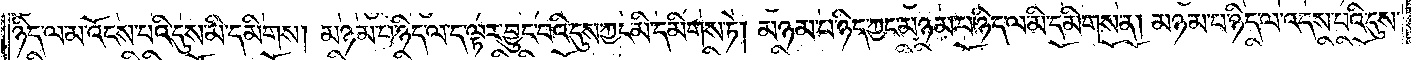ཉིད་ལ་མ་འོངས་པའི་དུས་མི་དམིགས། མཉམ་པ་ཉིད་ལ་ད་ལྟར་བྱུང་བའི་དུས་ཀྱང་མི་དམིགས་ཏེ། མཉམ་པ་ཉིད་ཀྱང་མཉམ་པ་ཉིད་ལ་མི་དམིགས་ན། མཉམ་པ་ཉིད་ལ་འདས་པའི་དུས་
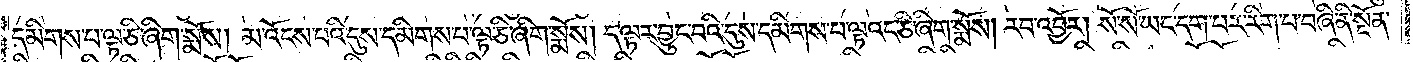དམིགས་པ་ལྟ་ཅི་ཞིག་སྨོས། མ་འོངས་པའི་དུས་དམིགས་པ་ལྟ་ཅི་ཞིག་སྨོས། ད་ལྟར་བྱུང་བའི་དུས་དམིགས་པ་ལྟའང་ཅི་ཞིག་སྨོས། རབ་འབྱོར། སོ་སོ་ཡང་དག་པར་རིག་པ་བཞི་ནི་སྔོན་
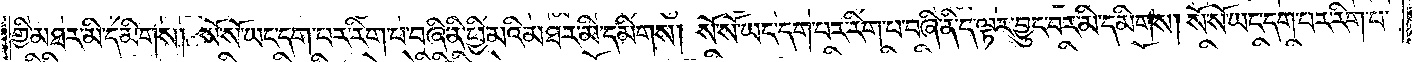གྱི་མཐར་མི་དམིགས། སོ་སོ་ཡང་དག་པར་རིག་པ་བཞི་ནི་ཕྱི་མའི་མཐར་མི་དམིགས། སོ་སོ་ཡང་དག་པར་རིག་པ་བཞི་ནི་ད་ལྟར་བྱུང་བར་མི་དམིགས། སོ་སོ་ཡང་དག་པར་རིག་པ་
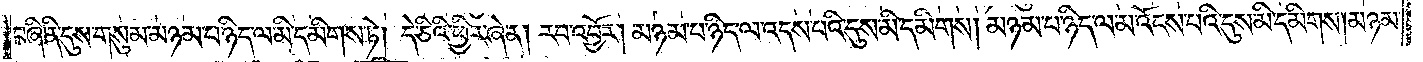བཞི་ནི་དུས་གསུམ་མཉམ་པ་ཉིད་ལ་མི་དམིགས་ཏེ། དེ་ཅིའི་ཕྱིར་ཞེ་ན། རབ་འབྱོར། མཉམ་པ་ཉིད་ལ་འདས་པའི་དུས་མི་དམིགས། མཉམ་པ་ཉིད་ལ་མ་འོངས་པའི་དུས་མི་དམིགས། མཉམ་
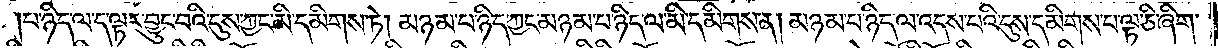པ་ཉིད་ལ་ད་ལྟར་བྱུང་བའི་དུས་ཀྱང་མི་དམིགས་ཏེ། མཉམ་པ་ཉིད་ཀྱང་མཉམ་པ་ཉིད་ལ་མི་དམིགས་ན། མཉམ་པ་ཉིད་ལ་འདས་པའི་དུས་དམིགས་པ་ལྟ་ཅི་ཞིག་
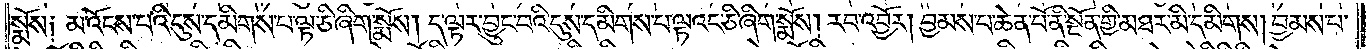སྨོས། མ་འོངས་པའི་དུས་དམིགས་པ་ལྟ་ཅི་ཞིག་སྨོས། ད་ལྟར་བྱུང་བའི་དུས་དམིགས་པ་ལྟའང་ཅི་ཞིག་སྨོས། རབ་འབྱོར། བྱམས་པ་ཆེན་པོ་ནི་སྔོན་གྱི་མཐར་མི་དམིགས། བྱམས་པ་
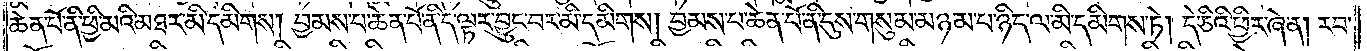ཆེན་པོ་ནི་ཕྱི་མའི་མཐར་མི་དམིགས། བྱམས་པ་ཆེན་པོ་ནི་ད་ལྟར་བྱུང་བར་མི་དམིགས། བྱམས་པ་ཆེན་པོ་ནི་དུས་གསུམ་མཉམ་པ་ཉིད་ལ་མི་དམིགས་ཏེ། དེ་ཅིའི་ཕྱིར་ཞེ་ན། རབ་
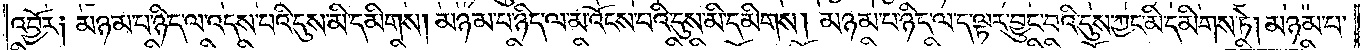འབྱོར། མཉམ་པ་ཉིད་ལ་འདས་པའི་དུས་མི་དམིགས། མཉམ་པ་ཉིད་ལ་མ་འོངས་པའི་དུས་མི་དམིགས། མཉམ་པ་ཉིད་ལ་ད་ལྟར་བྱུང་བའི་དུས་ཀྱང་མི་དམིགས་ཏེ། མཉམ་པ་
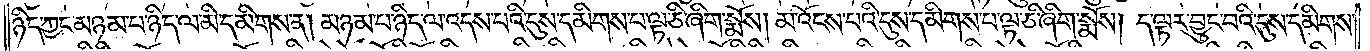ཉིད་ཀྱང་མཉམ་པ་ཉིད་ལ་མི་དམིགས་ན། མཉམ་པ་ཉིད་ལ་འདས་པའི་དུས་དམིགས་པ་ལྟ་ཅི་ཞིག་སྨོས། མ་འོངས་པའི་དུས་དམིགས་པ་ལྟ་ཅི་ཞིག་སྨོས། ད་ལྟར་བྱུང་བའི་དུས་དམིགས་
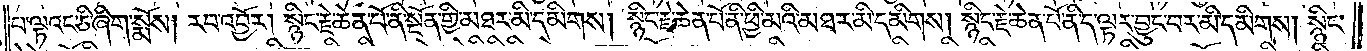པ་ལྟའང་ཅི་ཞིག་སྨོས། རབ་འབྱོར། སྙིང་རྗེ་ཆེན་པོ་ནི་སྔོན་གྱི་མཐར་མི་དམིགས། སྙིང་རྗེ་ཆེན་པོ་ནི་ཕྱི་མའི་མཐར་མི་དམིགས། སྙིང་རྗེ་ཆེན་པོ་ནི་ད་ལྟར་བྱུང་བར་མི་དམིགས། སྙིང་
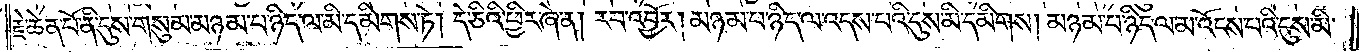རྗེ་ཆེན་པོ་ནི་དུས་གསུམ་མཉམ་པ་ཉིད་ལ་མི་དམིགས་ཏེ། དེ་ཅིའི་ཕྱིར་ཞེ་ན། རབ་འབྱོར། མཉམ་པ་ཉིད་ལ་འདས་པའི་དུས་མི་དམིགས། མཉམ་པ་ཉིད་ལ་མ་འོངས་པའི་དུས་མི་
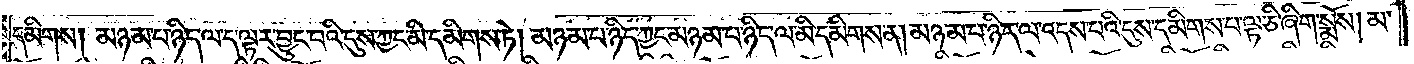དམིགས། མཉམ་པ་ཉིད་ལ་ད་ལྟར་བྱུང་བའི་དུས་ཀྱང་མི་དམིགས་ཏེ། མཉམ་པ་ཉིད་ཀྱང་མཉམ་པ་ཉིད་ལ་མི་དམིགས་ན། མཉམ་པ་ཉིད་ལ་འདས་པའི་དུས་དམིགས་པ་ལྟ་ཅི་ཞིག་སྨོས། མ་
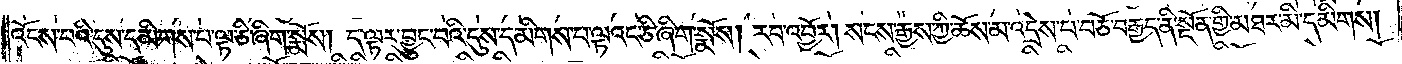འོངས་པའི་དུས་དམིགས་པ་ལྟ་ཅི་ཞིག་སྨོས། ད་ལྟར་བྱུང་བའི་དུས་དམིགས་པ་ལྟའང་ཅི་ཞིག་སྨོས། རབ་འབྱོར། སངས་རྒྱས་ཀྱི་ཆོས་མ་འདྲེས་པ་བཅོ་བརྒྱད་ནི་སྔོན་གྱི་མཐར་མི་དམིགས།
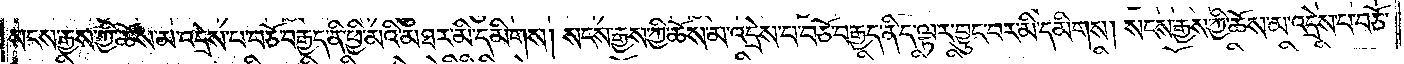སངས་རྒྱས་ཀྱི་ཆོས་མ་འདྲེས་པ་བཅོ་བརྒྱད་ནི་ཕྱི་མའི་མཐར་མི་དམིགས། སངས་རྒྱས་ཀྱི་ཆོས་མ་འདྲིས་པ་བཅོ་བརྒྱད་ནི་ད་ལྟར་བྱུང་བར་མི་དམིགས། སངས་རྒྱས་ཀྱི་ཆོས་མ་འདྲེས་པ་བཅོ་
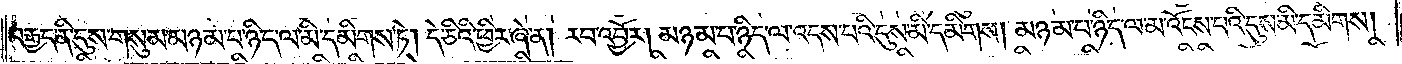བརྒྱད་ནི་དུས་གསུམ་མཉམ་པ་ཉིད་ལ་མི་དམིགས་ཏེ། དེ་ཅིའི་ཕྱིར་ཞེ་ན། རབ་འབྱོར། མཉམ་པ་ཉིད་ལ་འདས་པའི་དུས་མི་དམིགས། མཉམ་པ་ཉིད་ལ་མ་འོངས་པའི་དུས་མི་དམིགས།
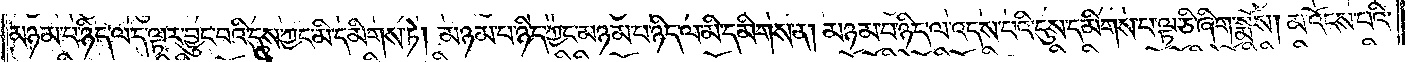མཉམ་པ་ཉིད་ལ་ད་ལྟར་བྱུང་བའི་དུས་བྱང་མི་དམིགས་ཏེ། མཉམ་པ་ཉིད་ཀྱང་མཉམ་པ་ཉིད་ལ་མི་དམིགས་ན། མཉམ་པ་ཉིད་ལ་འདས་པའི་དུས་དམིགས་པ་ལྟ་ཅི་ཞིག་སྨོས། མ་འོངས་པའི་
